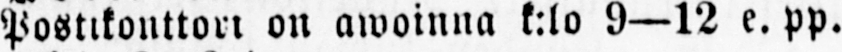Postikonttori on awoinna k:lo 9—12 e. pp.
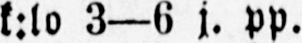k:lo 3—6 j. pp.
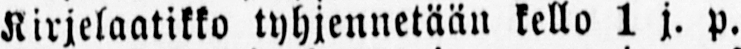Kirjelaatikko tyhjennetään kello 1 j. p.
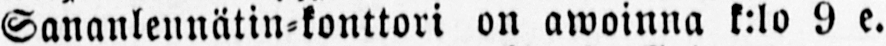Sananlennätin-konttori on awoinna k:lo 9 e.
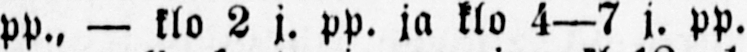pp., — klo 2 j. pp. ja klo 4—7 j. pp.
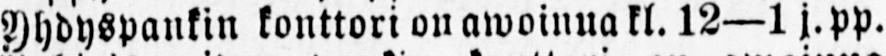Yhdyspankin konttori on awoinua kl. 12 —1 j. PP.
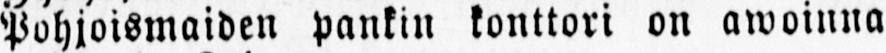Pohjoismaiden pankin konttori on awoinna
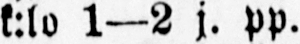k:lo 1—2 j. pp.
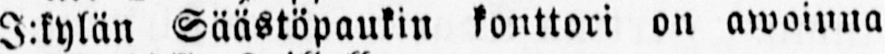I:kylän Säästöpaukin konttori on awoinna
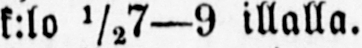k:lo ½7—9 illalla.
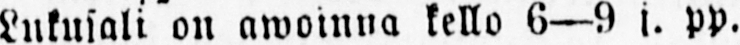Lukusali on awoinna kello 6—9 j. pp.
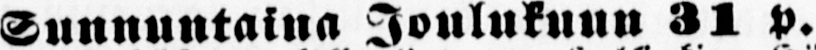Tunnuntaina Joulukuun 31 p.
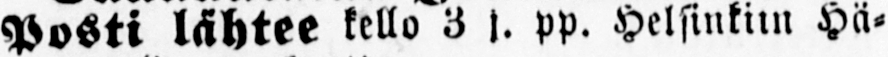Posti lähtee kello 3 j. pp. Helsinkiin Hä-
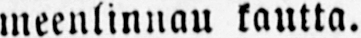meenlinnau kautta.
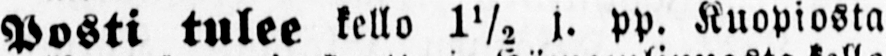Posti tulee kello 1½ j. pp. Kuopiosta
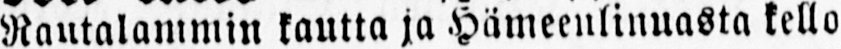Rautalammin kautta ja Hämeenlinnasta kello
